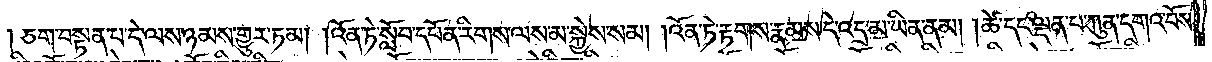ཅག་བསྟན་པ་དེ་ལས་ཉམས་གྱུར་ཏམ། །འོན་ཏེ་སློབ་དཔོན་རིགས་ལས་མ་སྐྱེས་སམ། །འོན་ཏེ་རྟགས་རྣམས་དེ་འདྲ་མ་ཡིན་ནམ། །ཚེ་དང་ལྡན་པ་ཀུན་དགའ་བོས་
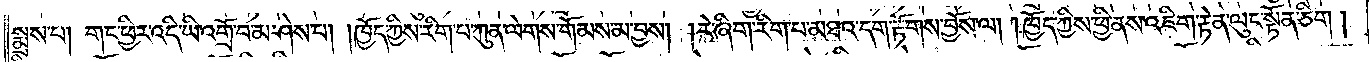སྨྲས་པ། གང་ཕྱིར་འདི་ཡི་འགྲོ་བ་མ་ཤེས་པ། །ཁྱོད་ཀྱིས་རིག་པ་ཀུན་ལེགས་གོམས་མ་བྱས། །རེ་ཞིག་རིག་པ་མཐའ་དག་རྟོགས་བྱོས་ལ། །ཁྱོད་ཀྱིས་ཕྱི་ནས་འཇིག་རྟེན་ལུང་སྟོན་ཅིག །
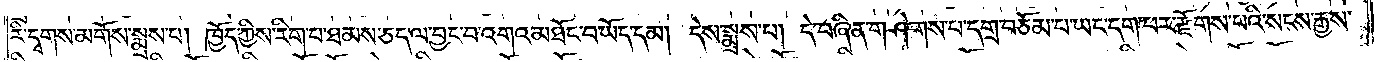རི་དྭགས་མགོས་སྨྲས་པ། ཁྱོད་ཀྱིས་རིག་པ་ཐམས་ཅད་ལ་བྱང་བ་འགའ་མཐོང་བ་ཡོད་དམ། དེས་སྨྲས་པ། དེ་བཞིན་གཤེགས་པ་དགྲ་བཅོམ་པ་ཡང་དག་པར་རྫོགས་པའི་སངས་རྒྱས་
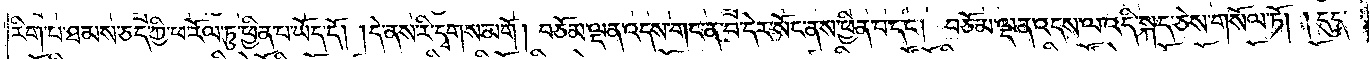རིག་པ་ཐམས་ཅད་ཀྱི་ཕ་རོལ་ཏུ་ཕྱིན་པ་ཡོད་དོ། །དེ་ནས་རི་དྭགས་མགོ། བཅོམ་ལྡན་འདས་གང་ན་བ་དེར་སོང་ནས་ཕྱིན་པ་དང༌། བཅོམ་ལྡན་འདས་ལ་འདི་སྐད་ཅེས་གསོལ་ཏོ། །དུད་
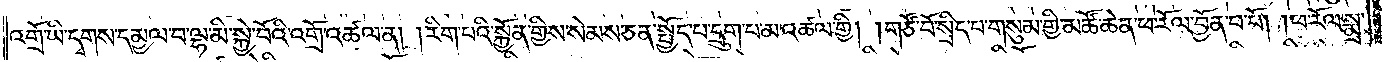འགྲོ་ཡི་དྭགས་དམྱལ་བ་ལྷ་མི་སྐྱེ་བོའི་འགྲོ་འཚལ་ན། །རིག་པའི་སྐྱོན་གྱིས་སེམས་ཅན་སྤྱོད་པ་དྲུག་པ་མ་འཚལ་གྱི། །གཙོ་བོ་སྲིད་པ་གསུམ་གྱི་མཚོ་ཆེན་ཕ་རོལ་བྱོན་པ་པོ། །ཕ་རོལ་སྨྲ་
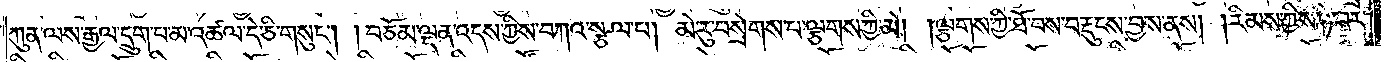ཀུན་ལས་རྒྱལ་དྲུག་པ་མ་འཚལ་དེ་ཅི་གསུང༌། །བཅོམ་ལྡན་འདས་ཀྱིས་བཀའ་སྩལ་པ། མེ་རུ་བསྲེགས་བ་ལྕགས་ཀྱི་མེ། །ལྕགས་ཀྱི་ཐོ་བས་བརྡུངས་བྱས་ནས། །རིམས་ཀྱིས་ཉེ་བར་
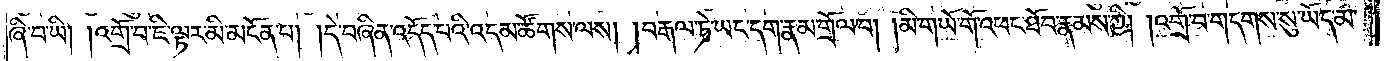ཞི་པ་ཡི། །འགྲོ་བ་ཇི་ལྟར་མི་མངོན་པ། །དེ་བཞིན་འདོད་པའི་འདམ་ཚོགས་ལས། །བརྒལ་ཏེ་ཡང་དག་རྣམ་གྲོལ་བ། །མི་གཡོ་གོ་འཕང་ཐོབ་རྣམས་ཀྱི། །འགྲོ་བ་གདགས་སུ་ཡོད་མ་
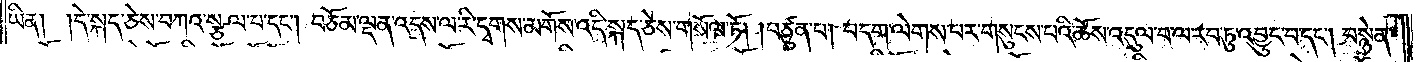ཡིན། །དེ་སྐད་ཅེས་བཀའ་སྩལ་པ་དང༌། བཅོམ་ལྡན་འདས་ལ་རི་དྭགས་མགོས་འདི་སྐད་ཅེས་གསལ་ཏེ། །བཙུན་པ། བདག་ལེགས་པར་གསུངས་པའི་ཆོས་འདུལ་བ་ལ་རབ་ཏུ་འབྱུང་བ་དང༌། བསྙེན་
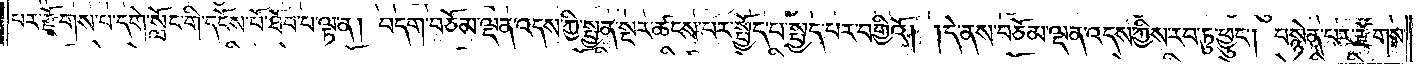པར་རྫོགས་པ་དགེ་སློང་གི་དངོས་པོ་ཐོབ་པ་ལྟ་ན། བདག་བཅོམ་ལྡན་འདས་ཀྱིས་སྤྱན་སྔར་ཚངས་པར་སྤྱོད་པ་སྤྱད་པར་བགྱིའོ། །དེ་ནས་བཅོམ་ལྡན་འདས་ཀྱིས་རབ་ཏུ་ཕྱུང༌། བསྙེན་པར་རྫོགས་
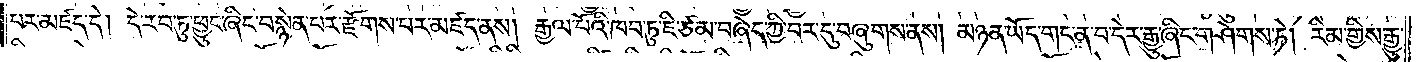པར་མཛད་དེ། དེ་རབ་ཏུ་ཕྱུང་ཞིང་བསྙེན་པར་རྫོགས་པར་མཛད་ནས། རྒྱལ་པོའི་ཁབ་ཏུ་ཇི་ཙམ་བཞེད་ཀྱི་བར་དུ་བཞུགས་ནས། མཉན་ཡོད་གང་ན་བ་དེར་རྒྱུ་ཞིང་གཤེགས་ཏེ། རིམ་གྱིས་རྒྱུ་
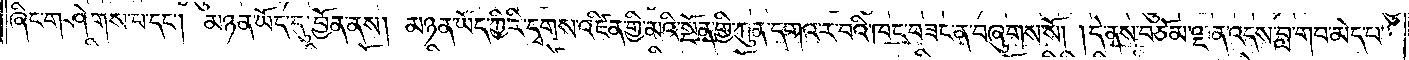ཞིང་གཤེགས་པ་དང༌། མཉན་ཡོད་དུ་བྱོན་ནས། མཉན་ཡོད་ཀྱི་རི་དྭགས་འཛིན་གྱི་མའི་སྔོན་གྱི་ཀུན་དགའ་ར་བའི་ཁང་བཟང་ན་བཞུགས་སོ། །དེ་ནས་བཅོམ་ལྡན་འདས་བླ་གབ་མེད་པ་
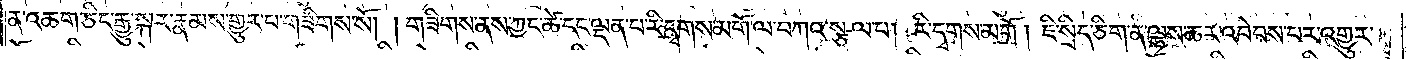ན་འཆག་ཅིང་རྒྱུ་སྐར་རྣམས་གྱུར་པ་གཟིགས་སོ། །གཟིགས་ནས་ཀྱང་ཚེ་དང་ལྡན་པ་རི་དྭགས་མགོ་ལ་བཀའ་སྩལ་པ། རི་དྭགས་མགོ །ཇི་སྲིད་ཅིག་ན་ལྷས་ཆར་འབེབས་པར་འགྱུར་
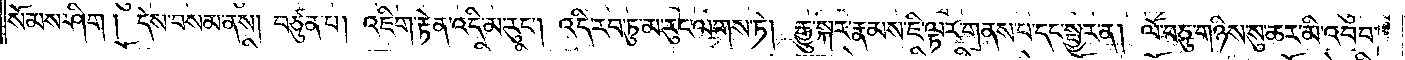སོམས་ཤིག །དེས་བསམ་ནས། བཙུན་པ། འཇིག་རྟེན་འདི་མ་རུང༌། འདི་རབ་ཏུ་མ་རུང་ལགས་ཏེ། རྒྱུ་སྐར་རྣམས་ཇི་ལྟར་གནས་བ་དང་སྦྱར་ན། ལོ་བཅུ་གཉིས་སུ་ཆར་མི་འབབ་
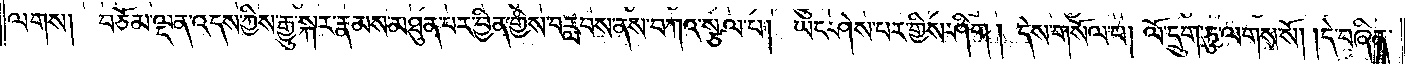ལགས། བཅོམ་ལྡན་འདས་ཀྱིས་རྒྱུ་སྐར་རྣམས་མཐུན་པར་བྱིན་གྱིས་བརླབས་ནས་བཀའ་སྩལ་པ། ཡང་ཤེས་པར་གྱིས་ཤིག །དེས་གསོལ་པ། ལོ་དྲུག་ཏུ་ལགས་སོ། །དེ་བཞིན་
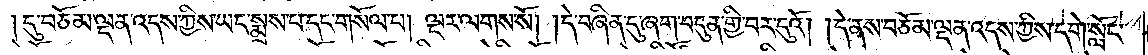དུ་བཅོམ་ལྡན་འདས་ཀྱིས་ཡང་སྨྲས་པ་དང་གསོལ་པ། ལྔར་ལགས་སོ། །དེ་བཞིན་དུ་ཞག་བདུན་གྱི་བར་དུའོ། །དེ་ནས་བཅོམ་ལྡན་འདས་ཀྱིས་དགེ་སློང་
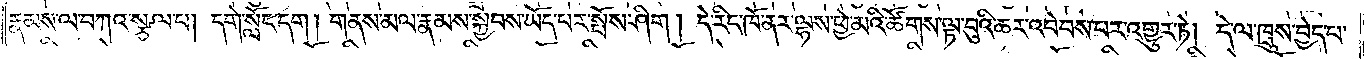རྣམས་ལ་བཀའ་སྩལ་པ། དགེ་སློང་དག །གནས་མལ་རྣམས་སྐྱབས་ཡོད་པར་སྤོས་ཤིག །དེ་རིང་ཁོ་ནར་ལྷས་ཕྱེ་མའི་ཚོགས་ལྟ་བུའི་ཆར་འབེབས་པར་འགྱུར་ཏེ། དེ་ལ་ཁྲུས་བྱེད་པ་
